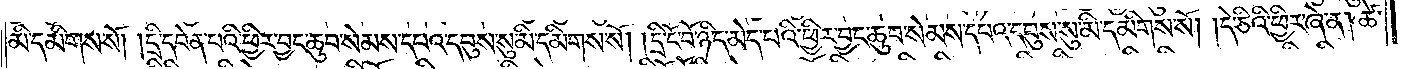མི་དམིགས་སོ། །དྲི་དབེན་པའི་ཕྱིར་བྱང་ཆུབ་སེམས་དཔའ་དབུས་སུ་མི་དམིགས་སོ། །དྲི་ངོ་བོ་ཉིད་མེད་པའི་ཕྱིར་བྱང་ཆུབ་སེམས་དཔའ་དབུས་སུ་མི་དམིགས་སོ། །དེ་ཅིའི་ཕྱིར་ཞེ་ན། ཚེ་
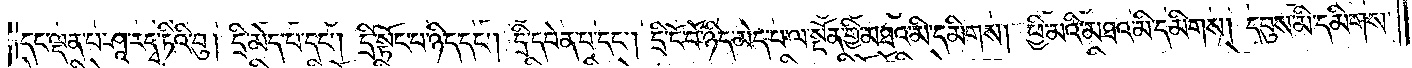དང་ལྡན་པ་ཤཱ་རདྭ་ཏིའི་བུ། དྲི་མེད་པ་དང༌། དྲི་སྟོང་པ་ཉིད་དང༌། དྲི་དབེན་པ་དང༌། དྲི་ངོ་བོ་ཉིད་མེད་པ་ལ་སྔོན་གྱི་མཐའ་མི་དམིགས། ཕྱི་མའི་མཐའ་མི་དམིགས། དབུས་མི་དམིགས་
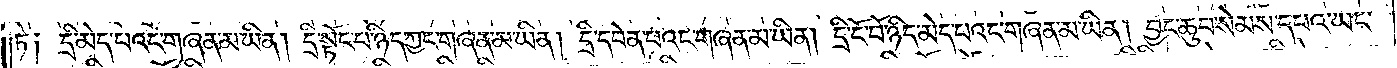ཏེ། དྲི་མེད་པའང་གཞན་མ་ཡིན། དྲི་སྟོང་པ་ཉིད་ཀྱང་གཞན་མ་ཡིན། དྲི་དབེན་པའང་གཞན་མ་ཡིན། དྲི་ངོ་བོ་ཉིད་མེད་པའང་གཞན་མ་ཡིན། བྱང་ཆུབ་སེམས་དཔའ་ཡང་
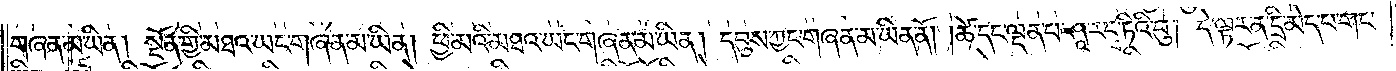གཞན་མ་ཡིན། སྔོན་གྱི་མཐའ་ཡང་གཞན་མ་ཡིན། ཕྱི་མའི་མཐའ་ཡང་གཞན་མ་ཡིན། དབུས་ཀྱང་གཞན་མ་ཡིན་ནོ། །ཚེ་དང་ལྡན་པ་ཤཱ་རདྭ་ཏིའི་བུ། དེ་ལྟར་ན་དྲི་མེད་པ་གང་
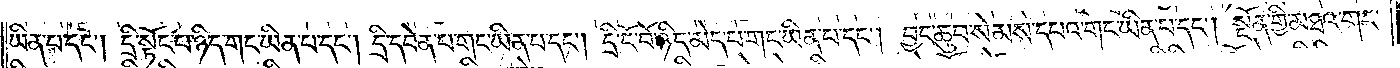ཡིན་པ་དང༌། དྲི་སྟོང་པ་ཉིད་གང་ཡིན་པ་དང༌། དྲི་དབེན་པ་གང་ཡིན་པ་དང༌། དྲི་ངོ་བོ་ཉིད་མེད་པ་གང་ཡིན་པ་དང༌། བྱང་ཆུབ་སེམས་དཔའ་གང་ཡིན་པ་དང༌། སྔོན་གྱི་མཐའ་གང་
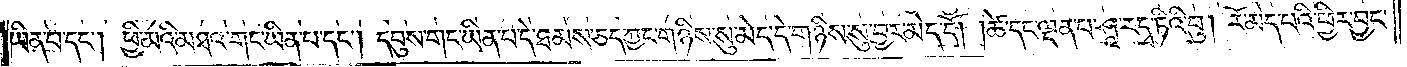ཡིན་པ་དང༌། ཕྱི་མའི་མཐའ་གང་ཡིན་པ་དང༌། དབུས་གང་ཡིན་པ་དེ་ཐམས་ཅད་ཀྱང་གཉིས་སུ་མེད་དེ་གཉིས་སུ་བྱར་མེད་དོ། །ཚེ་དང་ལྡན་པ་ཤཱ་རདྭ་ཏིའི་བུ། རོ་མེད་པའི་ཕྱིར་བྱང་
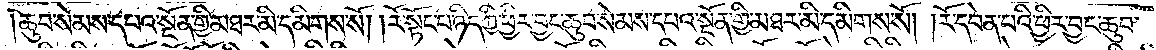ཆུབ་སེམས་དཔའ་སྔོན་གྱི་མཐར་མི་དམིགས་སོ། །རོ་སྟོང་པ་ཉིད་ཀྱི་ཕྱིར་བྱང་ཆུབ་སེམས་དཔའ་སྔོན་གྱི་མཐར་མི་དམིགས་སོ། །རོ་དབེན་པའི་ཕྱིར་བྱང་ཆུབ་
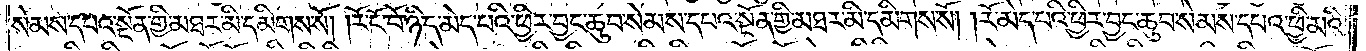སེམས་དཔའ་སྔོན་གྱི་མཐར་མི་དམིགས་སོ། །རོ་ངོ་བོ་ཉིད་མེད་པའི་ཕྱིར་བྱང་ཆུབ་སེམས་དཔའ་སྔོན་གྱི་མཐར་མི་དམིགས་སོ། །རོ་མེད་པའི་ཕྱིར་བྱང་ཆུབ་སེམས་དཔའ་ཕྱི་མའི་
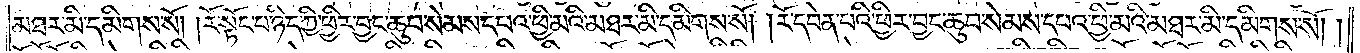མཐར་མི་དམིགས་སོ། རོ་སྟོང་པ་ཉིད་ཀྱི་ཕྱིར་བྱང་ཆུབ་སེམས་དཔའ་ཕྱི་མའི་མཐར་མི་དམིགས་སོ། །རོ་དབེན་པའི་ཕྱིར་བྱང་ཆུབ་སེམས་དཔའ་ཕྱི་མའི་མཐར་མི་དམིགས་སོ། །
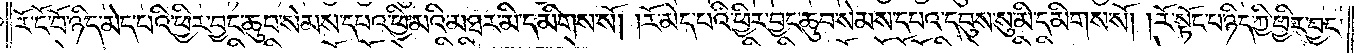རོ་ངོ་བོ་ཉིད་མེད་པའི་ཕྱིར་བྱང་ཆུབ་སེམས་དཔའ་ཕྱི་མའི་མཐར་མི་དམིགས་སོ། །རོ་མེད་པའི་ཕྱིར་བྱང་ཆུབ་སེམས་དཔའ་དབུས་སུ་མི་དམིགས་སོ། །རོ་སྟོང་པ་ཉིད་ཀྱི་ཕྱིར་བྱང་
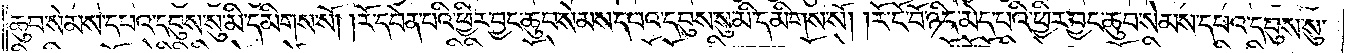ཆུབ་སེམས་དཔའ་དབུས་སུ་མི་དམིགས་སོ། །རོ་དབེན་པའི་ཕྱིར་བྱང་ཆུབ་སེམས་དཔའ་དབུས་སུ་མི་དམིགས་སོ། །རོ་ངོ་བོ་ཉིད་མེད་པའི་ཕྱིར་བྱང་ཆུབ་སེམས་དཔའ་དབུས་སུ་
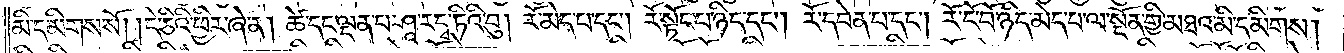མི་དམིགས་སོ། །དེ་ཅིའི་ཕྱིར་ཞེ་ན། ཚེ་དང་ལྡན་པ་ཤཱ་རདྭ་ཏིའི་བུ། རོ་མེད་པ་དང༌། རོ་སྟོང་པ་ཉིད་དང༌། རོ་དབེན་པ་དང༌། རོ་ངོ་བོ་ཉིད་མེད་པ་ལ་སྔོན་གྱི་མཐའ་མི་དམིགས།
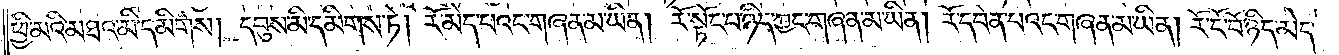ཕྱི་མའི་མཐའ་མི་དམིགས། དབུས་མི་དམིགས་ཏེ། རོ་མེད་པའང་གཞན་མ་ཡིན། རོ་སྟོང་པ་ཉིད་ཀྱང་གཞན་མ་ཡིན། རོ་དབེན་པའང་གཞན་མ་ཡིན། རོ་ངོ་བོ་ཉིད་མེད་
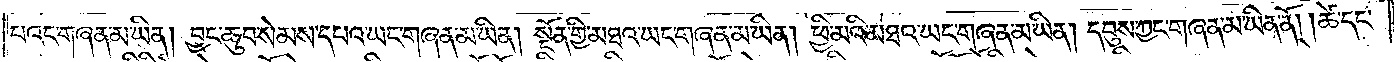པའང་གཞན་མ་ཡིན། བྱང་ཆུབ་སེམས་དཔའ་ཡང་གཞན་མ་ཡིན། སྔོན་གྱི་མཐའ་ཡང་གཞན་མ་ཡིན། ཕྱི་མའི་མཐའ་ཡང་གཞན་མ་ཡིན། དབུས་ཀྱང་གཞན་མ་ཡིན་ནོ། །ཚེ་དང་
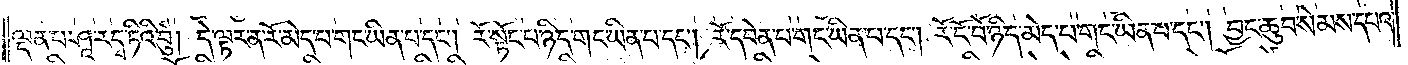ལྡན་པ་ཤཱ་རདྭ་ཏིའི་བུ། དེ་ལྟར་ན་རོ་མེད་པ་གང་ཡིན་པ་དང༌། རོ་སྟོང་པ་ཉིད་གང་ཡིན་པ་དང༌། རོ་དབེན་པ་གང་ཡིན་པ་དང༌། རོ་ངོ་བོ་ཉིད་མེད་པ་གང་ཡིན་པ་དང༌། བྱང་ཆུབ་སེམས་དཔའ་
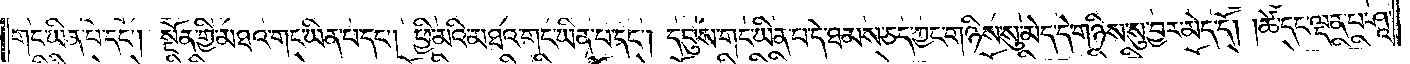གང་ཡིན་པ་དང༌། སྔོན་གྱི་མཐའ་གང་ཡིན་པ་དང༌། ཕྱི་མའི་མཐའ་གང་ཡིན་པ་དང༌། དབུས་གང་ཡིན་པ་དེ་ཐམས་ཅད་ཀྱང་གཉིས་སུ་མེད་དེ་གཉིས་སུ་བྱར་མེད་དོ། །ཚེ་དང་ལྡན་པ་ཤཱ་
